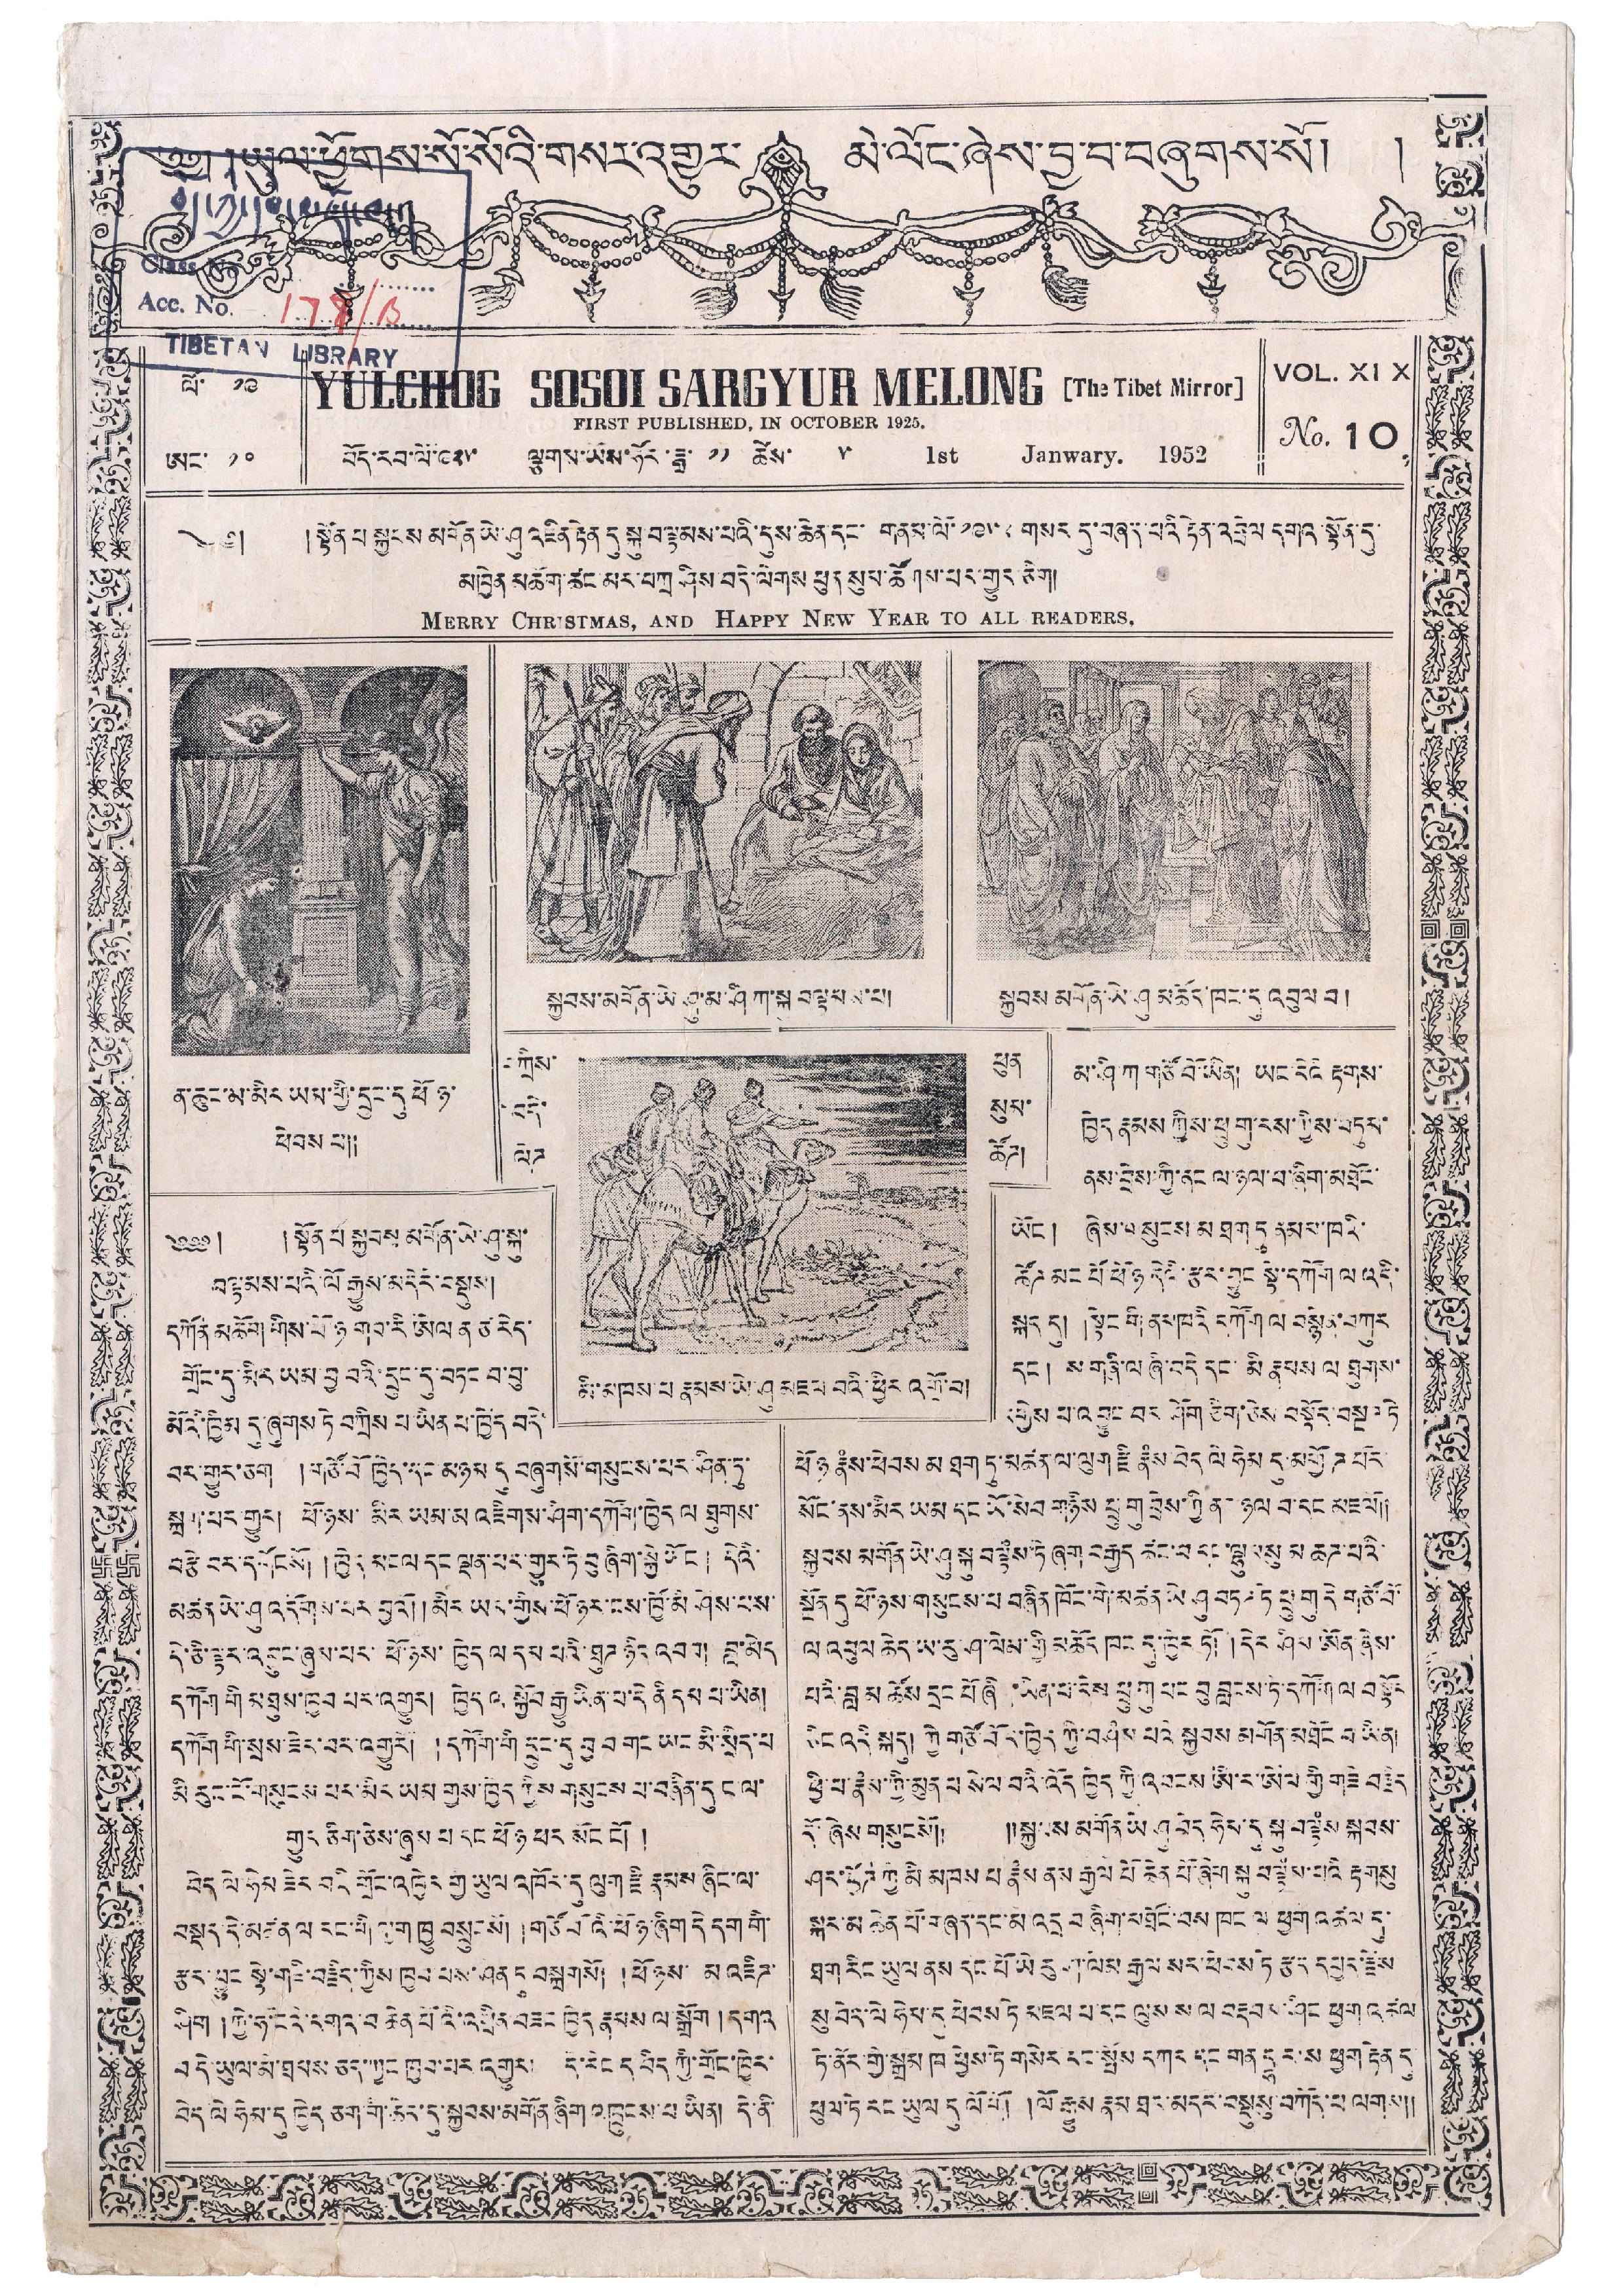༄༅། །ཡུལ་ཕྱོགས་སོ་སོའི་གསར་འགྱུར་ མེ་ལོང་ཞེས་བྱ་བ་བཞུགས་སོ། །
ལོ་ ༡༩
ཨང་ ༡༠
YULCHUG SOSOI SARGYUR MELONG [The Tibet Mirror]
FIRST PUBLISHED IN OCTOBER 1925
བོད་རབ་ལོ་ ༩༢༥ ལྕགས་ཡོས་ཧོར་ཟླ་ ༡༡ ཚེས་ ༥ 1st Janwary. 1952
VOL. XI X
No. 10
༄༅། །སྟོན པ སྐྱབས་མགོན་ཡེ་ཤུ་འཇིག་རྟེན་དུ་སྐུ བལྟམས་པའི་དུས་ཆེན་དང་ གནམ་ལོ་ ༡༩༥༢ གསར དུ་བཞད་པའི རྟེན་འབྲེལ དགའ་སྟོན་དུ་
མཁྱེན་མཆོག་ཚང་མར་བཀྲ ཤིས་བདེ་ལེགས་ཕུན་སུམ་ཚོགས་པར་གྱུར་ཅིག།
MERRY CHRISTMAS, AND HAPPY NEW YEAR TO ALL READERS.
ན་ཆུང་མ་མིར་ཡམ་གྱི་དྲུང་དུ་ཕོ ཉ་
ཕེབས པ།།
སྐྱབས་མགོན་ཡེ་ཤུ་མ་ཤི་ཀ་སྐུ་བལྟམས་པ།
སྐྱབས མགོན་ཡེ་ཤུ མཆོད་ཁང་དུ་འབུལ་བ།
བཀྲིས་
བདེ་
ལེཊ
ཕུན
སུམ་
ཚོཊ།
མི་མཁས་པ རྣམས་ཡེ་ཤུ མཇལ་བའི་ཕྱིར་འགྲོ་བ།
༄༅༅། །སྟོན་པ་སྐྱབས་མགོན་ཡེ་ཤུ་སྐུ་
བལྟམས་པའི་ལོ་རྒྱུས་མདོར་བསྡུས།
དཀོན མཆོག གིས་ཕོ་ཉ གབ་རི་ཨེལ ན ཙ་རེད་
གྲོང་དུ་མིར་ཡམ་བྱ བའི་དྲུང་དུ་བཏང བ་བུ་
མོའི་ཁྱིམ་དུ་ཞུགས་ཏེ་བཀྲིས་པ་ཡིན་པ་ཁྱེད བདེ་
བར་གྱུར་ཅག །གཙོ་བོ ཁྱེད་དང་མཉམ་དུ་བཞུགསོ་གསུངས་པར་ཤིན་ཏུ་
སྐྲག་པར་གྱུར། ཕོ་ཉས་ མིར་ཡམ་མ འཇིགས་ཤིག་དཀོག་ཁྱེར ལ ཐུགས་
བརྩེ་བར་དགོངསོ། །ཁྱེད་མངལ་དང་ལྡན་པར་གྱུར་ཏེ་བུ་ཞིག་སྐྱེ་ཡོང་ དེའི་
མཚན་ཡེ་ཤུ་འདོགས་པར་བྱའོ། །མིར་ཡང་གྱིས་ཕོ་ཉར་ངས་ཁྱོ་མི ཤེས་པས་
དེ་ཅི་ལྟར་འབྱུང་ཞུས་པར་ཕོ་ཉས་ཁྱེད་ལ་དམ་པའི་ཐུཊ་ཉིད་འབབ། བླ་མེད་
དཀོག་གི་མཐུས་ཁྱབ་པར་འགྱུར། ཁྱེད འ སྐྱོབ་རྒྱུ་ཡིན་པ་དེ་ནི་དམ་པ་ཡིན།
དཀོག་གི་སྲས་ཟེར་བར་འགྱུརོ། །དཀོག་གི་དྲུང་དུ་བྱ་བ་གང་ཡང་མི་སྲིད་པ་
མི་རུང་ངོ་གསུངས་པར་མིར ཡམ་གྱས་ཁྱེད་ཀྱིས་གསུངས་པ་བཞིན་དུང་ལ་
གྱུར ཅིག་ཅེས་ཞུམ པ་དང ཕོ ཉ ཕར་མོང་ངོ། །
བདེ ལེ་ཧེམ་ཟེར་བའི་གྲོང་འཁྱེར་གྱ་ཡུལ་འཁོར་དུ་ལུག་རྫི་རྣམས་ཞིང་ལ་
བསྡད་དེ་མཚན་ལ རང་གི་ལུག་ཁྱུ བསྲུངསོ། །གཙོ་བོའི་ཕོ་ཉ་ཞིག དེ་དག གི་
རྩར་བྱུར སྟེ་གཟི་བརྗིད་ཀྱིས་ཁྱབ་པས་ཤན དུ བསྐྲགསོ། །ཕོ་ཉས་ མ་འཇིཊ་
ཤིག །ཀྱེ་ཧ་ངའི་དགའ་བ་ཆེན་པོའི་འཕྲིན་བཟང ཁྱེད རྣམས ལ་སྒྲོག །དགའ
བདེ་ཡུལ་མི་ཐམས་ཅད་ཀྱང་ཁྱབ་པར་འགྱུར། དེ་རིང ད བིད་ཀྱི་གྲོང་ཁྱེར་
བདེ་ལེ་ཧེམ་དུ་ཁྱེད་ཅག་གི་ཆིར་དུ་སྐྱབས་མགོན་ཞིག་འཁྲུངས་པ་ཡིན། །དེ་ནི་
མ་ཤི་ཀ གཙོ་བོ་ཡིན། ཡང་དེའི་ རྟགས་
ཁྱེད རྣམས ཀྱིས་ཕྲུ་གུ་རས་ཀྱིས་བཏུམ་
ནས་བྲེས་ཀྱི་ནང ལ་ཉལ་བ་ཞིག་མཐོང་
ཡོང། ཞེས་གསྲུངས་མ་ཐག་ཏུ་ནམས་ཁའི་
ཚོཊ མང པོ ཕོ་ཉ དེའི་རྩར་བྱུང སྟེ་དཀོག ལ་འདི་
སྐད དུ། །སྟེང གི ནམ་ཁའི དཀོག ལ བསྙེན་བཀུར
དང། ས་གཞི་ལ་ཞི་བདེ དང་མི རྣམས ལ ཐུགས་
དགྱེས་པ་འབྱུང་བར ཤོག ཅིག་ཅེས བསྟོད་བསྔཊཏེ
ཕོ ཉ རྣཾས་ཕེབས མ་ཐག ཏུ་མཚན་ལ་ལུག་རྫི རྣཾས བདེ ལི་ཧེམ་དུ་མགྱོཊ པོར་
སོང་ནས་མིང་ཡམ དང་ཡོ་སེབ་གཉིས ཕྲུ་གུ་བྲེས་ཀྱི ནར་ཉལ བ་དང མཇལོ།།
སྐྱབས མགོན་ཡེ་ཤུ་སྐུ་བལྟཾས་ཏེ ཞག བརྒྱད ཚང་བ་དང་ལྷུ་བསྲུ་མཆཊ་པའི་
སྔོན དུ ཕོ་ཉས་གསུངས་པ་བཞིན་ཁོང་གི་མཚན་ཡེ་ཤུ་བཏཌ་ཏེ་ཕྲུ་གུ དེ གཙོ་བོ་
ལ འབུལ ཆེད ཡ་རུ་ཤ་ལེམ་གྱི་མཆོད ཁང དུ་ཁྱེར་ཏོ། །དེར་ཤིམ་ཨོན་ཞེས་
པའི་བླ་མ ཆོས དྲང་པོ་ཞི་ཡིན་པ་དེས ཕྲུ་གུ་པང་བུ་བླངས་ཏེ་དཀོག་ལ་བསྟོད
ཅིང་འདི་སྐདུ། གྱི་གཙོ་བོད་ཁྱེད་ཀྱི་བཤཾམ་པའི སྐྱབས་མགོན་མཐོང བ་ཡིན།
ཕྱི་པ་རྣཾམ་ཀྱི་མུན་པ སེལ་བའི་འོད་ཁྱེད ཀྱི་འབངས་ཨི་ར་ཨེལ་གྱི་གཟི་བརྗིད་
དོ་ཞེས་གསུངསོ།། །།སྐྱབས་མགོན་ཡེ་ཤུ་བེད་ཧེམ་དུ་སྐུ་བལྟཾས་སྐབས་
ཤར་ཕྱོཊ་ཀྱི་མི མཁས པ་རྣཾས ནས རྒྱལ པོ ཆེན་པོ་ཞིག་སྐུ བལྟཾས་པའི རྟགསུ
སྐར་མ ཆེན པོ་གཞན་དང་མ་འདྲ བ ཞིག་མཐོང་བས་ཁང ལ ཕྱག འཚལ དུ་
ཐག་རིང ཡུལ ནས དང་པོ་ཡེ་རུ ག་ལམ རྒྱལ སར་ཕེངས་ཏེ རྩད དཔྱད་རྗེས
སུ བདེ་ལེ ཧེམ་དུ ཕེབས ཏེ་མཇལ པ་དང ལུས ས་ལ བརྡབས་ཤིང ཕྱག་འཚལ་
ཏེ་ནོར་གྱི་སྒྲམ་ཁ ཕྱེས་ཏེ་གསེར དང་སྤོས དཀར དང གནདྷར་ས ཕྱག རྟེན དུ་
ཕུལ་ཏེ རང ཡུལ དུ ལོགོ། །ལོ་རྒྱུས རྣམ ཐར་མདར་བསྡུསུ་བཀོད་པ་ལགས།།
